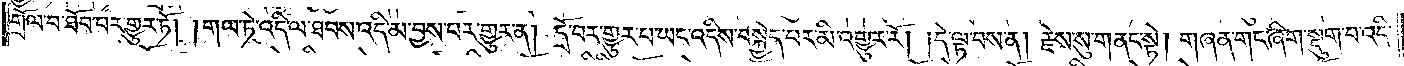གྲོལ་བ་ཐོབ་པར་གྱུར་ཏོ། །གལ་ཏེ་འདི་ལ་ཐབས་འདི་མ་བྱས་པར་གྱུར་ན། དྲོ་བར་གྱུར་བ་ཡང་འདིས་བསྐྱེད་པར་མི་འགྱུར་རོ། །དེ་ལྟ་བས་ན། རྗེས་སུ་གནང་སྟེ། གཞན་གང་ཞིག་སྡུག་པ་འདི་
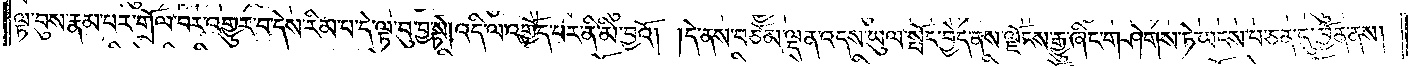ལྟ་བུས་རྣམ་པར་གྲོལ་བར་འགྱུར་བ་དེས་རིམ་པ་དེ་ལྟ་བུ་བྱ་སྟེ། འདི་ལ་འགྱོད་པར་ནི་མི་བྱའོ། །དེ་ནས་བཅོམ་ལྡན་འདས་ཡུལ་སྤོང་བྱེད་ནས་ལྗོངས་རྒྱུ་ཞིང་གཤེགས་ཏེ་ཡངས་པ་ཅན་དུ་བྱོན་ནས།
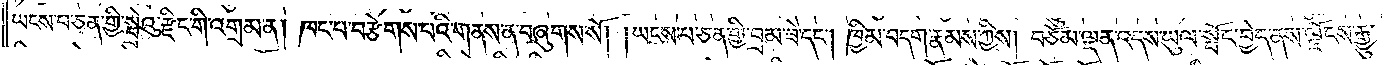ཡངས་པ་ཅན་གྱི་སྤྲེའུ་རྫིང་གི་འགྲམ་ན། ཁང་པ་བརྩེགས་པའི་གནས་ན་བཞུགས་སོ། །ཡངས་པ་ཅན་གྱི་བྲམ་ཟེ་དང༌། ཁྱིམ་བདག་རྣམས་ཀྱིས། བཅོམ་ལྡན་འདས་ཡུལ་སྤོང་བྱེད་ནས་ལྗོངས་རྒྱུ་
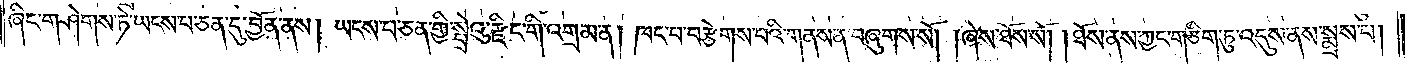ཞིང་གཤེགས་ཏེ་ཡངས་པ་ཅན་དུ་བྱོན་ནས། ཡངས་པ་ཅན་གྱི་སྤྲེའུ་རྫིང་གི་འགྲམ་ན། ཁང་པ་བརྩེགས་པའི་གནས་ན་བཞུགས་སོ། །ཞེས་ཐོས་སོ། །ཐོས་ནས་ཀྱང་གཅིག་ཏུ་འདུས་ནས་སྨྲས་པ།
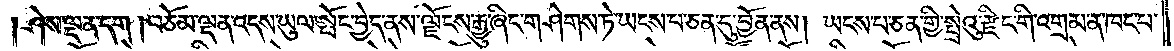ཤེས་ལྡན་དག །བཅོམ་ལྡན་འདས་ཡུལ་སྤོང་བྱེད་ནས་ལྗོངས་རྒྱུ་ཞིང་གཤེགས་ཏེ་ཡངས་པ་ཅན་དུ་བྱོན་ནས། ཡངས་པ་ཅན་གྱི་སྤྲེའུ་རྫིང་གི་འགྲམ་ན་ཁང་པ་
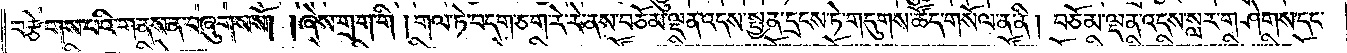བརྩེགས་པའི་གནས་ན་བཞུགས་སོ། །ཞེས་གྲག་གི །གལ་ཏེ་བདག་ཅག་རེ་རེ་ནས་བཅོམ་ལྡན་འདས་སྤྱན་དྲངས་ཏེ་གདུགས་ཚོད་གསོལ་ན་ནི། བཅོམ་ལྡན་འདས་སླར་གཤེགས་དང་
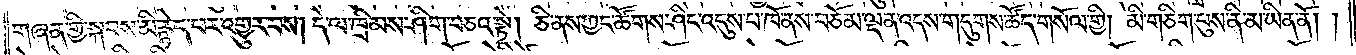གཞན་གྱི་སྐབས་མི་རྙེད་པར་འགྱུར་བས། དེ་ལ་ཁྲིམས་ཤིག་བཅའ་སྟེ། ཅི་ནས་ཀྱང་ཚོགས་ཤིང་འདུས་པ་ཁོ་ནས་བཅོམ་ལྡན་འདས་གདུགས་ཚོད་གསོལ་གྱི། མི་གཅིག་པུས་ནི་མ་ཡིན་ནོ༎
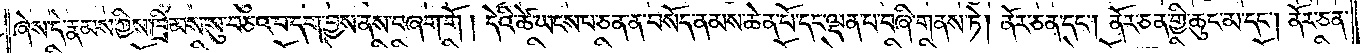ཞེས་དེ་རྣམས་ཀྱིས་ཁྲིམས་སུ་བཅའ་བ་དག་བྱས་ནས་བཞག་གོ །དེའི་ཚེ་ཡངས་པ་ཅན་ན་བསོད་ནམས་ཆེན་པོ་དང་ལྡན་པ་བཞི་གནས་ཏེ། ནོར་ཅན་དང༌། ནོར་ཅན་གྱི་ཆུང་མ་དང༌། ནོར་ཅན་
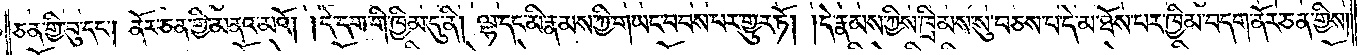ཅན་གྱི་བུ་དང༌། ནོར་ཅན་གྱི་མནའ་མའོ། །དེ་དག་གི་ཁྱིམ་དུ་ནི། ལྷ་དང་མི་རྣམས་ཀྱི་གཡང་བབས་པར་གྱུར་ཏོ། །དེ་རྣམས་ཀྱིས་ཁྲིམས་སུ་བཅས་པ་དེ་མ་ཐོས་པར་ཁྱིམ་བདག་ནོར་ཅན་གྱིས།
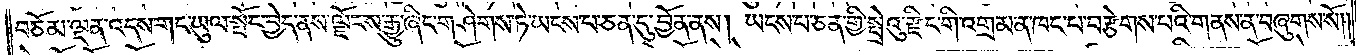བཅོམ་ལྡན་འདས་གང་ཡུལ་སྤོང་བྱེད་ནས་ལྗོངས་རྒྱུ་ཞིང་གཤེགས་ཏེ་ཡངས་པ་ཅན་དུ་བྱོན་ནས། ཡངས་པ་ཅན་གྱི་སྤྲེའུ་རྫིང་གི་འགྲམ་ན་ཁང་པ་བརྩེགས་པའི་གནས་ན་བཞུགས་སོ༎
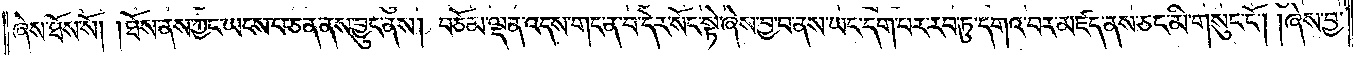ཞེས་ཐོས་སོ། །ཐོས་ནས་ཀྱང་ཡངས་པ་ཅན་ནས་བྱུང་ནས། བཅོམ་ལྡན་འདས་གང་ན་བ་དེར་སོང་སྟེ་ཞེས་བྱ་བ་ནས་ཡང་དག་པར་རབ་ཏུ་དགའ་བར་མཛད་ནས་ཅང་མི་གསུང་ངོ༌། །ཞེས་བྱ་
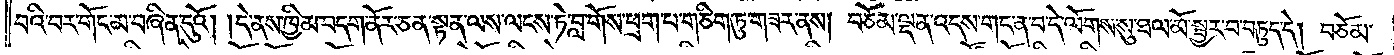བའི་བར་གོང་མ་བཞིན་དུའོ། །དེ་ནས་ཁྱིམ་བདག་ནོར་ཅན་སྟན་ལས་ལངས་ཏེ་བླ་གོས་ཕྲག་པ་གཅིག་ཏུ་གཟར་ནས། བཅོམ་ལྡན་འདས་གང་ན་བ་དེ་ལོགས་སུ་ཐལ་མོ་སྦྱར་བ་བཏུད་དེ། བཅོམ་
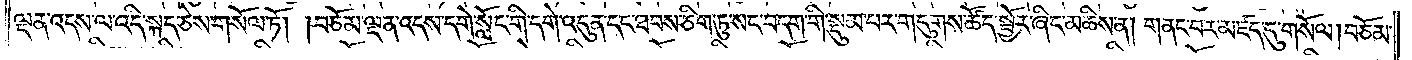ལྡན་འདས་ལ་འདི་སྐད་ཅེས་གསོལ་ཏོ། །བཅོམ་ལྡན་འདས་དགེ་སློང་གི་དགེ་འདུན་དང་ཐབས་ཅིག་ཏུ་སང་བདག་གི་སྡུམ་པར་གདུགས་ཚོད་སྦྱོར་ཞིང་མཆིས་ན། གནང་བར་མཛད་དུ་གསོལ། བཅོམ་
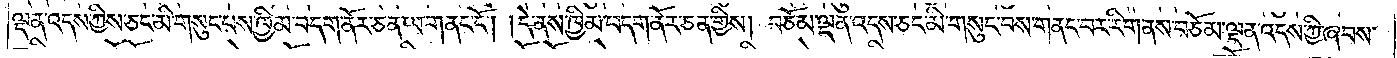ལྡན་འདས་ཀྱིས་ཅང་མི་གསུང་པས་ཁྱིམ་བདག་ནོར་ཅན་ལ་གནང་ངོ༌། །དེ་ནས་ཁྱིམ་བདག་ནོར་ཅན་གྱིས། བཅོམ་ལྡན་འདས་ཅང་མི་གསུང་བས་གནང་བར་རིག་ནས་བཅོམ་ལྡན་འདས་ཀྱི་ཞབས་
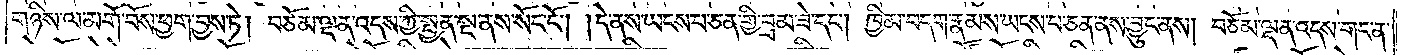གཉིས་ལ་མགོ་བོས་ཕྱག་བྱས་ཏེ། བཅོམ་ལྡན་འདས་ཀྱི་སྤྱན་སྔ་ནས་སོང་ངོ༌། །དེ་ནས་ཡངས་པ་ཅན་གྱི་བྲམ་ཟེ་དང༌། ཁྱིམ་བདག་རྣམས་ཡངས་པ་ཅན་ནས་བྱུང་ནས། བཅོམ་ལྡན་འདས་གང་ན་
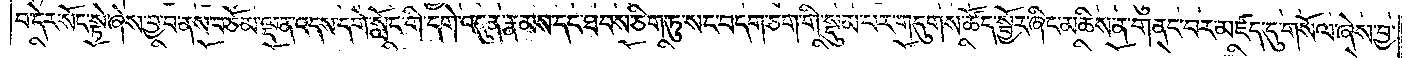བ་དེར་སོང་སྟེ་ཞེས་བྱ་བ་ནས་བཅོམ་ལྡན་འདས་དགེ་སློང་གི་དགེ་འདུན་རྣམས་དང་ཐབས་ཅིག་ཏུ་སང་བདག་ཅག་གི་སྡུམ་པར་གདུགས་ཚོད་སྦྱོར་ཞིང་མཆིས་ན་གནང་བར་མཛད་དུ་གསོལ་ཞེས་བྱ་
